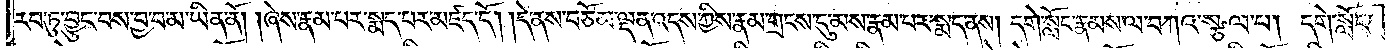རབ་ཏུ་བྱུང་བས་བྱ་བ་མ་ཡིན་ནོ། །ཞེས་རྣམ་པར་སྨད་པར་མཛད་དོ། །དེ་ནས་བཅོམ་ལྡན་འདས་ཀྱིས་རྣམ་གྲངས་དུ་མས་རྣམ་པར་སྨད་ནས། དགེ་སློང་རྣམས་ལ་བཀའ་སྩལ་པ། དགེ་སློང་
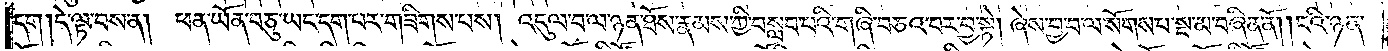དག །དེ་ལྟ་བས་ན། ཕན་ཡོན་བཅུ་ཡང་དག་པར་གཟིགས་པས། འདུལ་བ་ལ་ཉན་ཐོས་རྣམས་ཀྱི་བསླབ་པའི་གཞི་བཅའ་བར་བྱ་སྟེ། ཞེས་བྱ་བ་ལ་སོགས་པ་སྔ་མ་བཞིན་ནོ། །ངའི་ཉན་
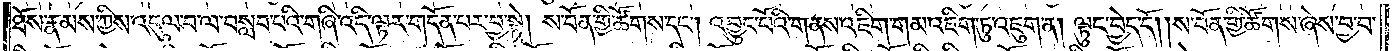ཐོས་རྣམས་ཀྱིས་འདུལ་བ་ལ་བསླབ་པའི་གཞི་འདི་ལྟར་གདོན་པར་བྱ་སྟེ། ས་བོན་གྱི་ཚོགས་དང༌། འབྱུང་པོའི་གནས་འཇིག་གམ་འཇིག་ཏུ་འཇུག་ན། ལྟུང་བྱེད་དོ། །ས་བོན་གྱི་ཚོགས་ཞེས་བྱ་བ་
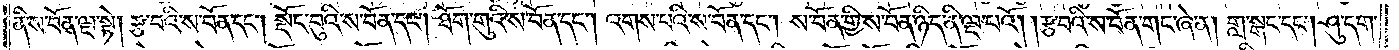ནི་ས་བོན་ལྔ་སྟེ། རྩ་བའི་ས་བོན་དང༌། སྡོང་བུའི་ས་བོན་དང༌། ཐོག་གུའི་ས་བོན་དང༌། འགས་པའི་ས་བོན་དང༌། ས་བོན་གྱི་ས་བོན་ཉིད་ནི་ལྔ་པའོ། །རྩ་བའི་ས་བོན་གང་ཞེ་ན། གླ་སྒང་དང༌། ཤུ་དག་
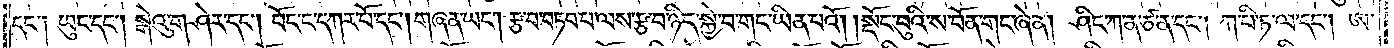དང༌། ཡུང་དང༌། སྒེའུ་གཤེར་དང༌། བོང་ང་དཀར་པོ་དང༌། གཞན་ཡང༌། རྩ་བ་བཏབ་པ་ལས་རྩ་བ་ཉིད་སྐྱེ་བ་གང་ཡིན་པའོ། །སྡོང་བུའི་ས་བོན་གང་ཞེ་ན། ཤིང་ཀ་ན་ཙ་ན་དང༌། ཀ་པི་ཏ་ལ་དང༌། ཨ་
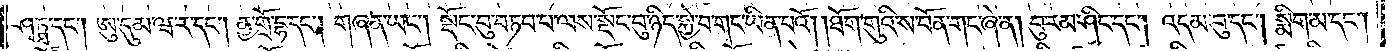ཤྭཏྠ་དང༌། ཨུ་དུམ་ཝ་ར་དང༌། ནྱ་གྲོ་དྷ་དང༌། གཞན་ཡང༌། སྡོང་བུ་བཏབ་པ་ལས་སྡོང་བུ་ཉིད་སྐྱེ་བ་གང་ཡིན་པའོ། །ཐོག་གུའི་ས་བོན་གང་ཞེ་ན། བུ་རམ་ཤིང་དང༌། འདམ་བུ་དང༌། སྨིག་མ་དང༌།
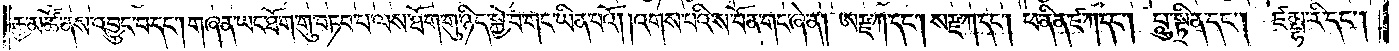རྒྱ་མཚོ་ནས་འབྱུང་བ་དང༌། གཞན་ཡང་ཐོག་གུ་བཏབ་པ་ལས་ཐོག་གུ་ཉིད་སྐྱེ་བ་གང་ཡིན་པའོ། །འགས་པའི་ས་བོན་གང་ཞེ་ན། ཨ་རྫ་ཀ་དང༌། ས་རྫ་ཀ་དང༌། ཕ་ནིན་ཛ་ཀ་དང༌། པཱུ་སྟྲིན་དང༌། ཛམྦྷ་རི་དང༌།
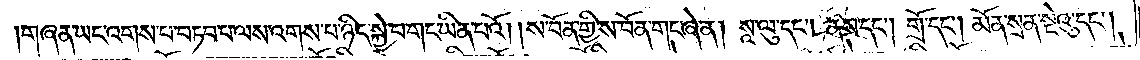གཞན་ཡང་འགས་པ་བཏབ་པ་ལས་འགས་པ་ཉིད་སྐྱེ་བ་གང་ཡིན་པའོ། །ས་བོན་གྱི་ས་བོན་གང་ཞེ་ན། སཱ་ལུ་དང༌། ནས་དང༌། གྲོ་དང༌། མོན་སྲན་སྡེའུ་དང༌།
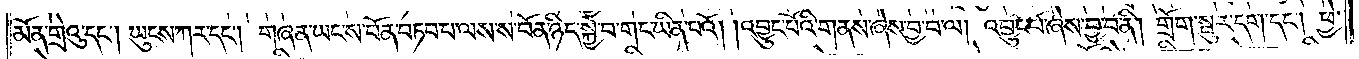མོན་གྲེའུ་དང༌། ཡུངས་ཀར་དང༌། གཞན་ཡང་ས་བོན་བཏབ་པ་ལས་ས་བོན་ཉིད་སྐྱེ་བ་གང་ཡིན་པའོ། །འབྱུང་པོའི་གནས་ཞེས་བྱ་བ་ལ། འབྱུང་པོ་ཞེས་བྱ་བ་ནི། གྲོག་སྦུར་དག་དང༌། ཕྱེ་
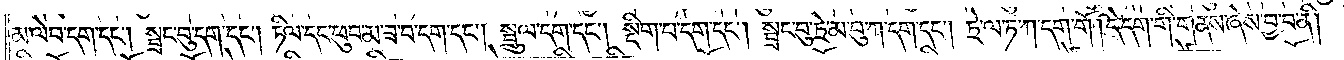མ་ལེབ་དག་དང༌། སྦྲང་བུ་དག་དང༌། ཏིལ་དང་ཕུབ་མ་ཟ་བ་དག་དང༌། སྦྲུལ་དག་དང༌། སྡིག་པ་དག་དང༌། སྦྲང་བུ་ཏྲེ་མ་བུ་ཀ་དག་དང༌། ཏྲེ་ལ་ཏ་ཀ་དག་གོ །དེ་དག་གི་གནས་ཞེས་བྱ་བ་ནི།
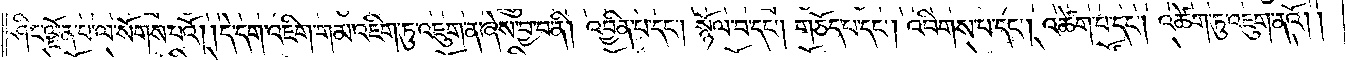ཤིང་ལྗོན་པ་ལ་སོགས་པའོ། །དེ་དག་འཇིག་གམ་འཇིག་ཏུ་འཇུག་ན་ཞེས་བྱ་བ་ནི། འབྱིན་པ་དང༌། སྙོལ་པ་དང༌། གཅོད་པ་དང༌། འབིགས་པ་དང༌། འཚེག་པ་དང༌། འཚེག་ཏུ་འཇུག་ནའོ༎
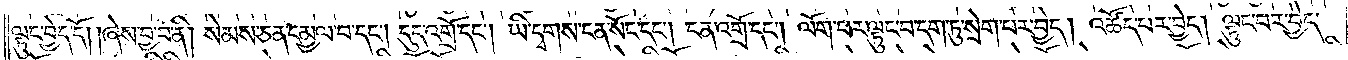ལྟུང་བྱེད་དོ། །ཞེས་བྱ་བ་ནི། སེམས་ཅན་དམྱལ་བ་དང༌། དུད་འགྲོ་དང༌། ཡི་དྭགས་ངན་སོང་དང༌། ངན་འགྲོ་དང༌། ལོག་པར་ལྟུང་བ་དག་ཏུ་སྲེག་པར་བྱེད། འཚོད་པར་བྱེད། ལྟུང་བར་བྱེད་
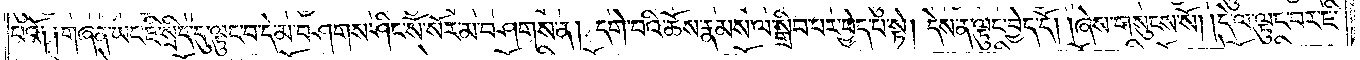པའོ། །གཞན་ཡང་ཇི་སྲིད་དུ་ལྟུང་བ་དེ་མ་བཤགས་ཤིང་སོ་སོར་མ་བཤགས་ན། དགེ་བའི་ཆོས་རྣམས་ལ་སྒྲིབ་པར་བྱེད་པ་སྟེ། དེས་ན་ལྟུང་བྱེད་དོ། །ཞེས་གསུངས་སོ། །དེ་ལ་ལྟུང་བར་ཇི་
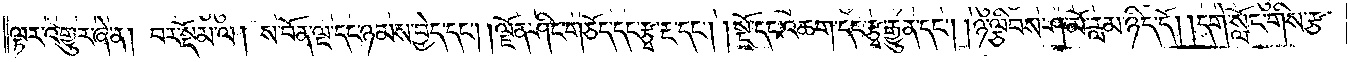ལྟར་འགྱུར་ཞེ་ན། བར་སྡོམ་ལ། ས་བོན་ལྔདང་ཉམས་བྱེད་དང༌། །ལྗོན་ཤིང་གཅོད་དང་རྩྭ་རྔ་དང༌། །སྔོ་དང་འཆག་དང་རྩྭ་རྒྱུན་དང༌། །ཉ་ལྕིབས་ཤ་མོ་རླམ་ཉིད་དོ། །དགེ་སློང་གིས་རྩ་
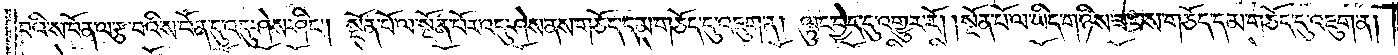བའི་ས་བོན་ལ་རྩ་བའི་ས་བོན་དུ་འདུ་ཤེས་ཤིང༌། སྔོན་པོ་ལ་སྔོན་པོར་འདུ་ཤེས་ནས་གཅོད་དམ་གཅོད་དུ་འཇུག་ན། ལྟུང་བྱེད་དུ་འགྱུར་རོ། །སྔོན་པོ་ལ་ཡིད་གཉིས་ཟ་བས་གཅོད་དམ་གཅོད་དུ་འཇུག་ན།
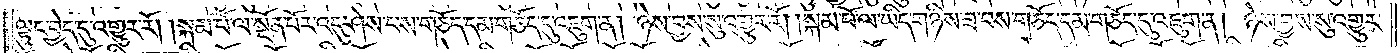ལྟུང་བྱེད་དུ་འགྱུར་རོ། །སྐམ་པོ་ལ་སྔོན་པོར་འདུ་ཤེས་པས་གཅོད་དམ་གཅོད་དུ་འཇུག་ན། ཉེས་བྱས་སུ་འགྱུར་རོ། །སྐམ་པོ་ལ་ཡིད་གཉིས་ཟ་བས་གཅོད་དམ་གཅོད་དུ་འཇུག་ན། ཉེས་བྱས་སུ་འགྱུར་
